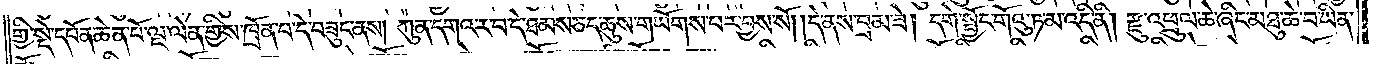གྱི་སྡེ་དཔོན་ཆེན་པོ་ལྔ་ལེན་གྱིས་ཁྲོན་པ་དེ་བཟུང་ནས། ཀུན་དགའ་ར་བ་དེ་ཐམས་ཅད་ཆུས་གཡོགས་པར་བྱས་སོ། །དེ་ནས་བྲམ་ཟེ། དགེ་སྦྱོང་གོའུ་ཏ་མ་འདི་ནི། རྫུ་འཕྲུལ་ཆེ་ཞིང་མཐུ་ཆེ་བ་ཡིན་
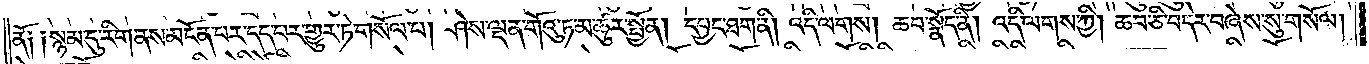ནོ༑ ༑སྙམ་དུ་རིག་ནས་མངོན་པར་དད་པར་གྱུར་ཏེ་གསོལ་པ། ཤེས་ལྡན་གོའུ་ཏ་མ་ཚུར་སྤྱོན། དཔྱང་ཐག་ནི། འདི་ལགས། ཆབ་སྣོད་ནི། འདི་ལགས་ཀྱི། ཆབ་ཅི་བདེར་བཞེས་སུ་གསོལ།
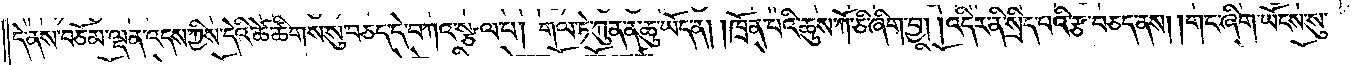དེ་ནས་བཅོམ་ལྡན་འདས་ཀྱིས་དེའི་ཚེ་ཚིགས་སུ་བཅད་དེ་བཀའ་སྩལ་པ། གལ་ཏེ་ཀུན་ན་ཆུ་ཡོད་ན། ཁྲོན་པའི་ཆུས་ཀོ་ཅི་ཞིག་བྱ། །འདིར་ནི་སྲིད་པའི་རྩ་བཅད་ནས། །གང་ཞིག་ཡོངས་སུ་
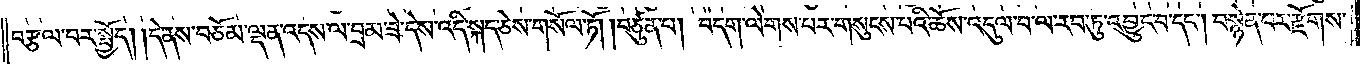བརྩལ་བར་སྤྱོད། །དེ་ནས་བཅོམ་ལྡན་འདས་ལ་བྲམ་ཟེ་དེས་འདི་སྐད་ཅེས་གསོལ་ཏོ། །བཙུན་པ། བདག་ལེགས་པར་གསུངས་པའི་ཆོས་འདུལ་བ་ལ་རབ་ཏུ་འབྱུང་བ་དང༌། བསྙེན་པར་རྫོགས་
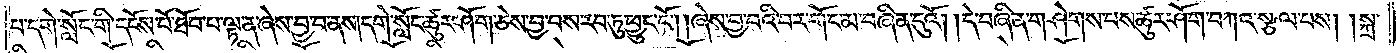པ་དགེ་སློང་གི་དངོས་པོ་ཐོབ་པ་ལྟ་ན་ཞེས་བྱ་བ་ནས།དགེ་སློང་ཚུར་ཤོག་ཅེས་བྱ་བས་རབ་ཏུ་ཕྱུང་ངོ༌། །ཞེས་བྱ་བའི་བར་གོང་མ་བཞིན་དུའོ། །དེ་བཞིན་གཤེགས་པས་ཚུར་ཤོག་བཀའ་སྩལ་པས། །སྐྲ་
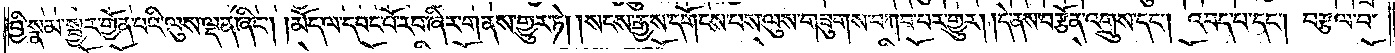བྱི་སྣམ་སྦྱར་གྱོན་པའི་ལུས་ལྡན་ཞིང༌། །མོད་ལ་དབང་པོ་རབ་ཞིར་གནས་གྱུར་ཏེ། །སངས་རྒྱས་དགོངས་པས་ལུས་གཟུགས་བཀབ་པར་གྱུར། །དེ་ནས་བརྩོན་འགྲུས་དང༌། འབད་པ་དང༌། བརྩལ་བ་
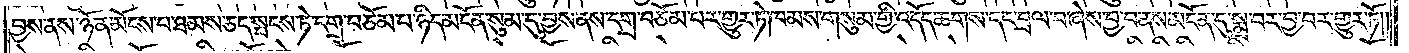བྱས་ནས་ཉོན་མོངས་པ་ཐམས་ཅད་སྤངས་ཏེ་དགྲ་བཅོམ་པ་ཉིད་མངོན་སུམ་དུ་བྱས་ནས་དགྲ་བཅོམ་པར་གྱུར་ཏེ་ཁམས་གསུམ་གྱི་འདོད་ཆགས་དང་བྲལ་བ་ཞེས་བྱ་བ་ནས་མངོན་དུ་སྨྲ་བར་བྱ་བར་གྱུར་ཏོ༎
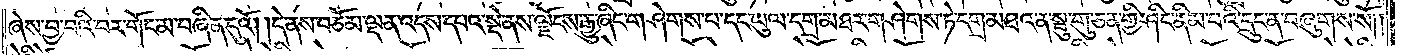ཞེས་བྱ་བའི་བར་གོང་མ་བཞིན་དུའོ། །དེ་ནས་བཅོམ་ལྡན་འདས་དཔའ་སྡེ་ནས་ལྗོངས་རྒྱུ་ཞིང་གཤེགས་པ་དང་ཡུལ་དགྲ་མཐར་གཤེགས་ཏེ་དགྲ་མཐའ་ན་སྦུ་གུ་ཅན་གྱི་ཤིང་ནིམ་པའི་དྲུང་ན་བཞུགས་སོ། །
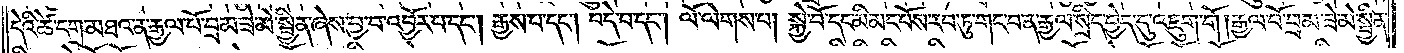དེའི་ཚེ་དགྲ་མཐའ་ན་རྒྱལ་པོ་བྲམ་ཟེ་མེ་སྦྱིན་ཞེས་བྱ་བ་འབྱོར་བ་དང༌། རྒྱས་པ་དང༌། བདེ་བ་དང༌། ལོ་ལེགས་པ། སྐྱེ་བོ་དང་མི་མང་པོས་རབ་ཏུ་གང་བ་ན་རྒྱལ་སྲིད་བྱེད་དུ་འཇུག་གོ །རྒྱལ་པོ་བྲམ་ཟེ་མེ་སྦྱིན་
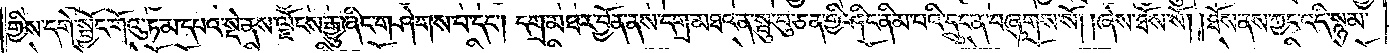གྱིས་དགེ་སྦྱོང་གོའུ་ཏ་མ་དཔའ་སྡེ་ནས་ལྗོངས་རྒྱུ་ཞིང་གཤེགས་པ་དང༌། དགྲ་མཐར་བྱོན་ནས་དགྲ་མཐའ་ན་སྦུ་བུ་ཅན་གྱི་ཤིང་ནིམ་པའི་དྲུང་ན་བཞུགས་སོ། །ཞེས་ཐོས་སོ། །ཐོས་ནས་ཀྱང་འདི་སྙམ་
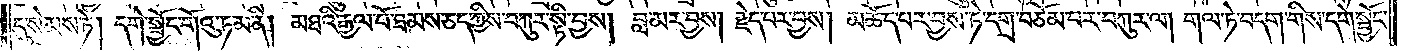དུ་སེམས་ཏེ། དགེ་སྦྱོང་གོའུ་ཏ་མ་ནི། མཐའི་རྒྱལ་པོ་ཐམས་ཅད་ཀྱིས་བཀུར་སྟི་བྱས། བླ་མར་བྱས། རྗེད་པར་བྱས། མཆོད་པར་བྱས་ཏེ་དགྲ་བཅོམ་པར་བཀུར་ལ། གལ་ཏེ་བདག་གིས་དགེ་སྦྱོང་
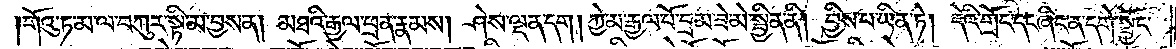གོའུ་ཏ་མ་ལ་བཀུར་སྟི་མ་བྱས་ན། མཐའི་རྒྱལ་ཕྲན་རྣམས། ཤེས་ལྡན་དག། ཀྱེ་མ་རྒྱལ་པོ་བྲམ་ཟེ་མེ་སྦྱིན་ནི། བྱིས་པ་ཡིན་ཏེ། དེའི་གྲོང་དང་ཞིང་ན་དགེ་སྦྱོང་
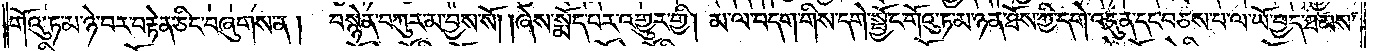གོའུ་ཏ་མ་ཉེ་བར་བརྟེན་ཅིང་བཞུགས་ན། བསྙེན་བཀུར་མ་བྱས་སོ། །ཞེས་སྨོད་པར་འགྱུར་གྱི། མ་ལ་བདག་གིས་དགེ་སྦྱོང་གོའུ་ཏ་མ་ཉན་ཐོས་ཀྱི་དགེ་འདུན་དང་བཅས་པ་ལ་ཡོ་བྱད་ཐམས་
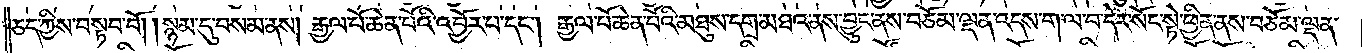ཅད་ཀྱིས་བསྟབ་བོ། །སྙམ་དུ་བསམ་ནས། རྒྱལ་པོ་ཆེན་པོའི་འབྱོར་བ་དང༌། རྒྱལ་པོ་ཆེན་པོའི་མཐུས་དགྲ་མཐའ་ནས་བྱུང་ནས་བཅོམ་ལྡན་འདས་ག་ལ་བ་དེར་སོང་སྟེ་ཕྱིན་ནས་བཅོམ་ལྡན་
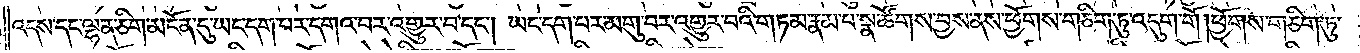འདས་དང་ལྷན་ཅིག་མངོན་དུ་ཡང་དག་པར་དགའ་བར་འགྱུར་བ་དང༌། ཡང་དག་པར་མགུ་བར་འགྱུར་བའི་གཏམ་རྣམ་པ་སྣ་ཚོགས་བྱས་ནས་ཕྱོགས་གཅིག་ཏུ་འདུག་གོ །ཕྱོགས་གཅིག་ཏུ་
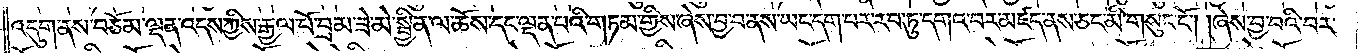འདུག་ནས་བཅོམ་ལྡན་འདས་ཀྱིས་རྒྱལ་པོ་བྲམ་ཟེ་མེ་སྦྱིན་ལ་ཆོས་དང་ལྡན་པའི་གཏམ་གྱིས་ཞེས་བྱ་བ་ནས་ཡང་དག་པར་རབ་ཏུ་དགའ་བར་མཛད་ནས་ཅང་མི་གསུང་ངོ༌། །ཞེས་བྱ་བའི་བར་
